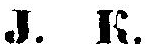J. K.
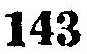143
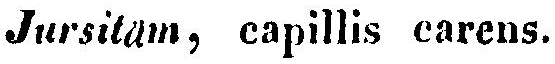Jursitäm, capillis carens.
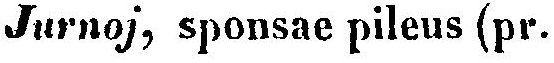Jurnoj, sponsae pileus (pr.
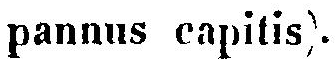pannus capitis.
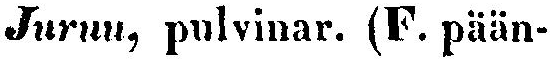Juruu, pulvinar. (F. pään-
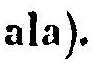ala).
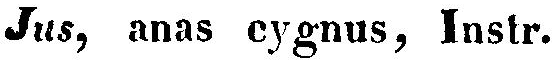Jus, anas cygnus, Instr.
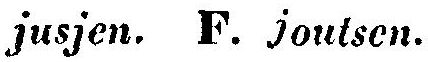jusjen. F. Joutsen.
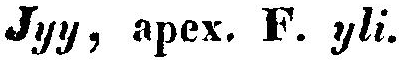Jyy, apex. F. yli.
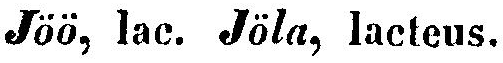Jöö, lac. Jöla, lacteus.
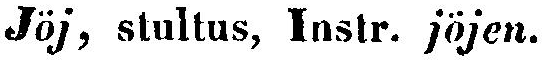Jöj, stultus, Instr. jöjen.
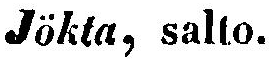Jökta, salto.
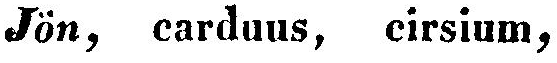Jön, carduus, cirsium,
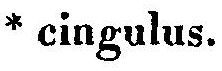* cingulus.
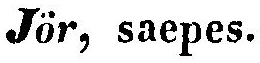Jör saepes.
